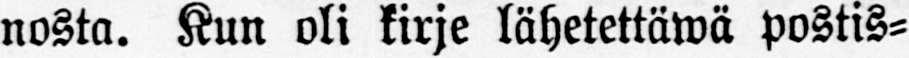nosta. Kun oli kirje lähetettäwä postis-
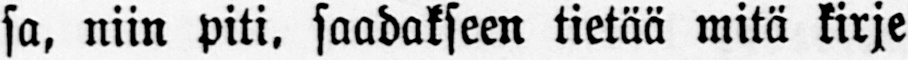sa, niin piti, saadakseen tietää mitä kirje
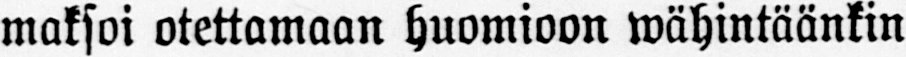maksoi otettamaan huomioon wähintäänkin
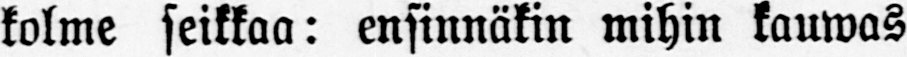kolme seikkaa: ensinnäkin mihin kauwas
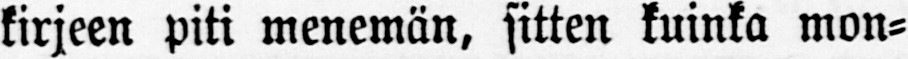kirjeen piti menemän, sitten kuinka mon-
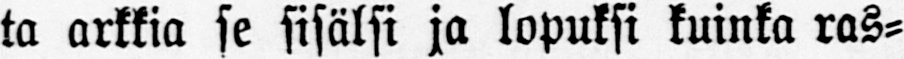ta arkkia se sisälsi ja lopuksi kuinka ras-
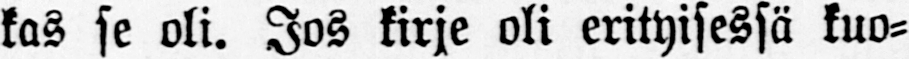kas se oli. Jos kirje oli erityisessä kuo-
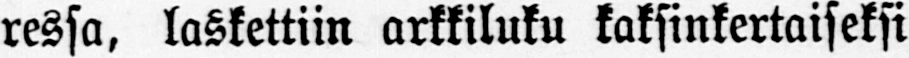ressa, laskettiin arkkiluku kaksinkertaiseksi
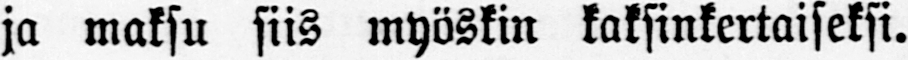ja maksu siis myöskin kaksinkertaiseksi.
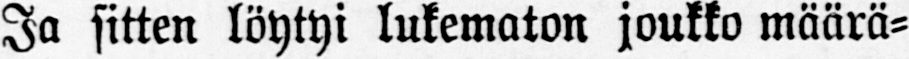Ja sitten löytyi lukematon joukko määrä-
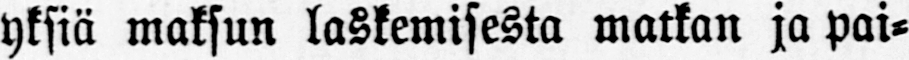yksiä maksun laskemisesta matkan ja pai-
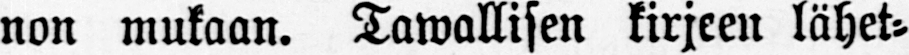non mukaan. Tawallisen kirjeen lähet-
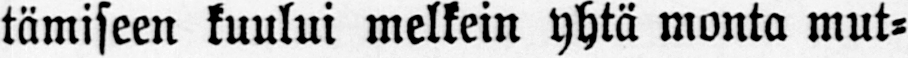tämiseen kuului melkein yhtä monta mut-
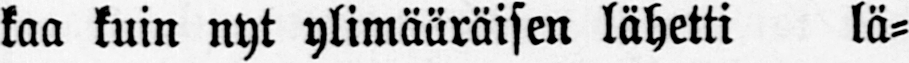kaa kuin nyt ylimääräisen lähetti lä-
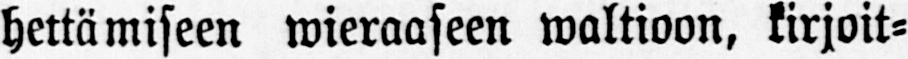hettämiseen wieraaseen waltioon, kirjoit-
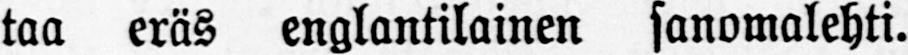taa eräs englantilainen sanomalehti.
